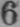6
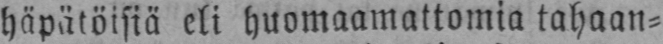häpätöisiä eli huomaamattomia tahaan-
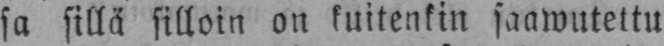sa sillä silloin on kuitenkin saawutettu
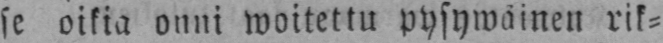se oikia onni woitettu pysywäinen rik-
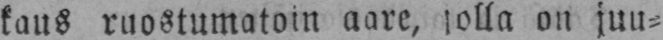kaus ruostumatoin aare, jolla on juu-
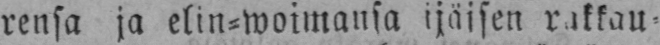rensa ja elin-woimansa ijäisen rakkau-
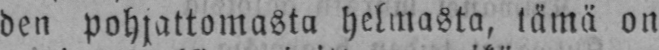den pohjattomasta helmasta, tämä on
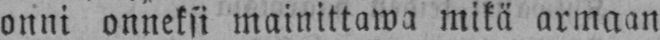onni onneksi mainittawa mikä armaan
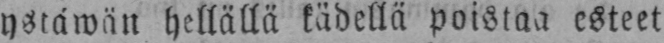ystäwän hellällä kädellä poistaa esteet
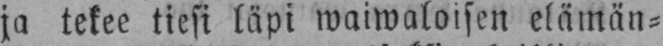ja tekee tiesi läpi waiwaloisen elämän-
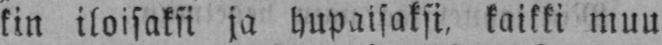kin iloisaksi ja hupaisaksi, kaikki muu
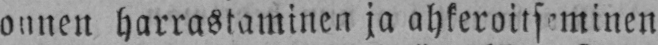onnen harrastaminen ja ahkeroitseminen
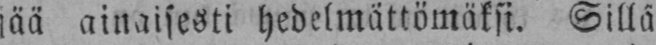jää ainaisesti hedelmättömäksi. Sillä
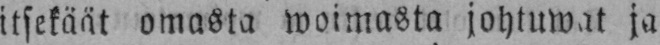itsekäät omasta woimasta johtuwat ja
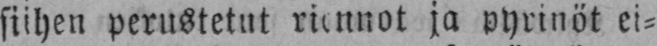siihen perustetut riennot ja pyrinöt ei-
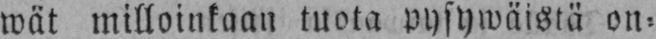wät milloinkaan tuota pysywäistä on-
